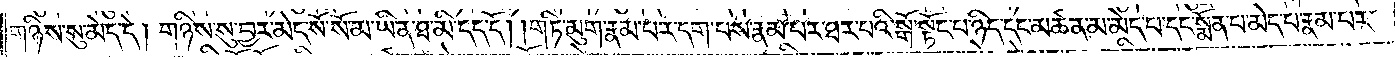གཉིས་སུ་མེད་དེ། གཉིས་སུ་བྱར་མེད་སོ་སོ་མ་ཡིན་ཐ་མི་དད་དོ། །གཏི་མུག་རྣམ་པར་དག་པས་རྣམ་པར་ཐར་པའི་སྒོ་སྟོང་པ་ཉིད་དང་མཚན་མ་མེད་པ་དང་སྨོན་པ་མེད་པ་རྣམ་པར་
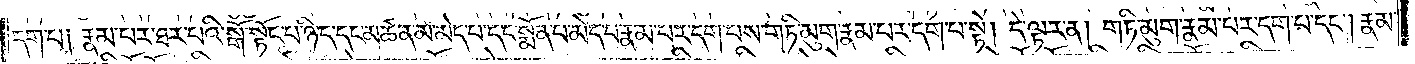དག་པ༑ རྣམ་པར་ཐར་པའི་སྒོ་སྟོང་པ་ཉིད་དང་མཚན་མ་མེད་པ་དང་སྨོན་པ་མེད་པ་རྣམ་པར་དག་པས་གཏི་མུག་རྣམ་པར་དག་པ་སྟེ། དེ་ལྟར་ན། གཏི་མུག་རྣམ་པར་དག་པ་དང༌། རྣམ་
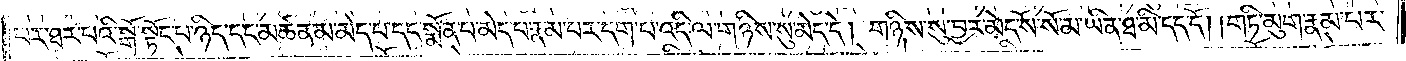པར་ཐར་པའི་སྒོ་སྟོང་པ་ཉིད་དང་མཚན་མ་མེད་པ་དང་སྨོན་པ་མེད་པ་རྣམ་པར་དག་པ་འདི་ལ་གཉིས་སུ་མེད་དེ། གཉིས་སུ་བྱར་མེད་སོ་སོ་མ་ཡིན་ཐ་མི་དད་དོ། །གཏི་མུག་རྣམ་པར་
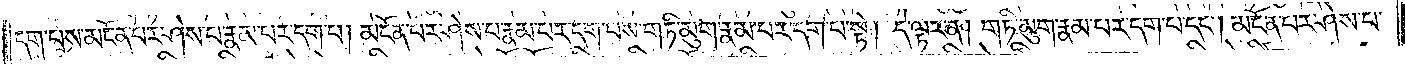དག་པས་མངོན་པར་ཤེས་པ་རྣམ་པར་དག་པ། མངོན་པར་ཤེས་པ་རྣམ་པར་དག་པས་གཏི་མུག་རྣམ་པར་དག་པ་སྟེ། དེ་ལྟར་ན། གཏི་མུག་རྣམ་པར་དག་པ་དང༌། མངོན་པར་ཤེས་པ་
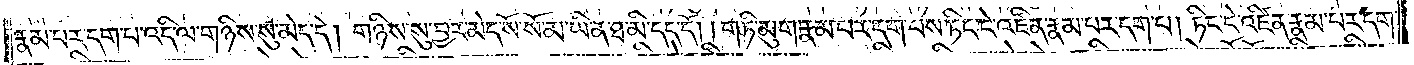རྣམ་པར་དག་པ་འདི་ལ་གཉིས་སུ་མེད་དེ། གཉིས་སུ་བྱར་མེད་སོ་སོ་མ་ཡིན་ཐ་མི་དད་དོ། །གཏི་མུག་རྣམ་པར་དག་པས་ཏིང་ངེ་འཛིན་རྣམ་པར་དག་པ། ཏིང་ངེ་འཛིན་རྣམ་པར་དག་
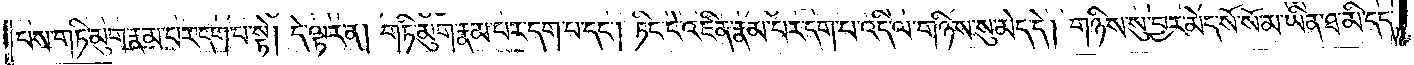པས་གཏི་མུག་རྣམ་པར་དག་པ་སྟེ། དེ་ལྟར་ན། གཏི་མུག་རྣམ་པར་དག་པ་དང༌། ཏིང་ངེ་འཛིན་རྣམ་པར་དག་པ་འདི་ལ་གཉིས་སུ་མེད་དེ། གཉིས་སུ་བྱར་མེད་སོ་སོ་མ་ཡིན་ཐ་མི་དད་
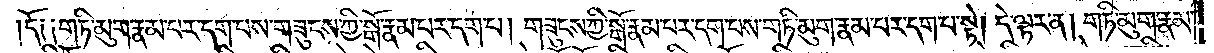དོ༑ ༑གཏི་མུག་རྣམ་པར་དག་པས་གཟུངས་ཀྱི་སྒོ་རྣམ་པར་དག་པ། གཟུངས་ཀྱི་སྒོ་རྣམ་པར་དག་པས་གཏི་མུག་རྣམ་པར་དག་པ་སྟེ། དེ་ལྟར་ན། གཏི་མུག་རྣམ་
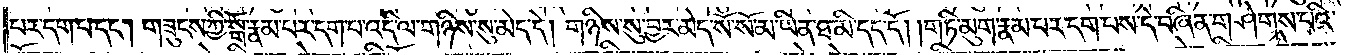པར་དག་པ་དང༌། གཟུངས་ཀྱི་སྒོ་རྣམ་པར་དག་པ་འདི་ལ་གཉིས་སུ་མེད་དེ། གཉིས་སུ་བྱར་མེད་སོ་སོ་མ་ཡིན་ཐ་མི་དད་དོ། །གཏི་མུག་རྣམ་པར་དག་པས་དེ་བཞིན་གཤེགས་པའི་
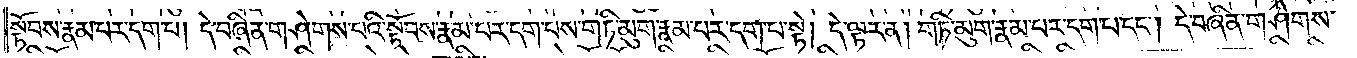སྟོབས་རྣམ་པར་དག་པ། དེ་བཞིན་གཤེགས་པའི་སྟོབས་རྣམ་པར་དག་པས་གཏི་མུག་རྣམ་པར་དག་པ་སྟེ། དེ་ལྟར་ན། གཏི་མུག་རྣམ་པར་དག་པ་དང༌། དེ་བཞིན་གཤེགས་
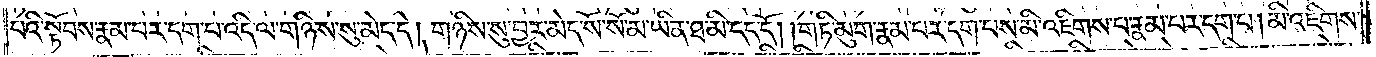པའི་སྟོབས་རྣམ་པར་དག་པ་འདི་ལ་གཉིས་སུ་མེད་དེ། གཉིས་སུ་བྱར་མེད་སོ་སོ་མ་ཡིན་ཐ་མི་དད་དོ། །གཏི་མུག་རྣམ་པར་དག་པས་མི་འཇིགས་པ་རྣམ་པར་དག་པ། མི་འཇིགས་
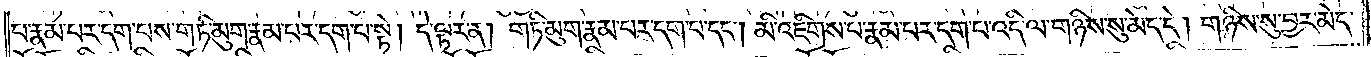པ་རྣམ་པར་དག་པས་གཏི་མུག་རྣམ་པར་དག་པ་སྟེ། དེ་ལྟར་ན། གཏི་མུག་རྣམ་པར་དག་པ་དང༌། མི་འཇིགས་པ་རྣམ་པར་དག་པ་འདི་ལ་གཉིས་སུ་མེད་དེ། གཉིས་སུ་བྱར་མེད་
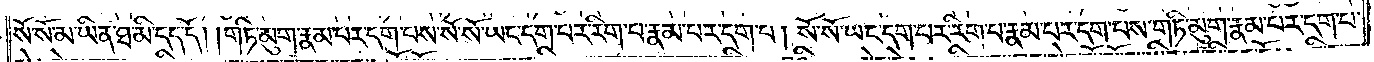སོ་སོ་མ་ཡིན་ཐ་མི་དད་དོ། །གཏི་མུག་རྣམ་པར་དག་པས་སོ་སོ་ཡང་དག་པར་རིག་པ་རྣམ་པར་དག་པ། སོ་སོ་ཡང་དག་པར་རིག་པ་རྣམ་པར་དག་པས་གཏི་མུག་རྣམ་པར་དག་པ་
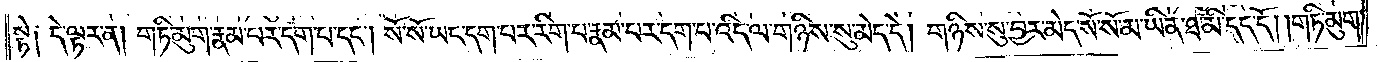སྟེ། དེ་ལྟར་ན། གཏི་མུག་རྣམ་པར་དག་པ་དང༌། སོ་སོ་ཡང་དག་པར་རིག་པ་རྣམ་པར་དག་པ་འདི་ལ་གཉིས་སུ་མེད་དེ། གཉིས་སུ་བྱར་མེད་སོ་སོ་མ་ཡིན་ཐ་མི་དད་དོ། །གཏི་མུག་
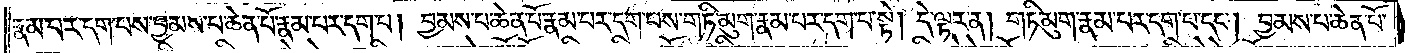རྣམ་པར་དག་པས་བྱམས་པ་ཆེན་པོ་རྣམ་པར་དག་པ། བྱམས་པ་ཆེན་པོ་རྣམ་པར་དག་པས་གཏི་མུག་རྣམ་པར་དག་པ་སྟེ། དེ་ལྟར་ན། གཏི་མུག་རྣམ་པར་དག་པ་དང༌། བྱམས་པ་ཆེན་པོ་
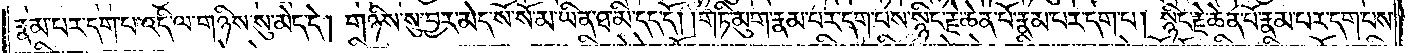རྣམ་པར་དག་པ་འདི་ལ་གཉིས་སུ་མེད་དེ། གཉིས་སུ་བྱར་མེད་སོ་སོ་མ་ཡིན་ཐ་མི་དད་དོ། །གཏི་མུག་རྣམ་པར་དག་པས་སྙིང་རྗེ་ཆེན་པོ་རྣམ་པར་དག་པ། སྙིང་རྗེ་ཆེན་པོ་རྣམ་པར་དག་པས་
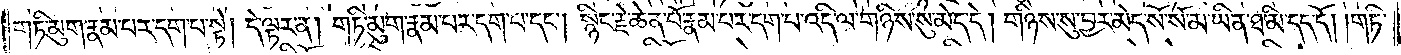གཏི་མུག་རྣམ་པར་དག་པ་སྟེ། དེ་ལྟར་ན། གཏི་མུག་རྣམ་པར་དག་པ་དང༌། སྙིང་རྗེ་ཆེན་པོ་རྣམ་པར་དག་པ་འདི་ལ་གཉིས་སུ་མེད་དེ། གཉིས་སུ་བྱར་མེད་སོ་སོ་མ་ཡིན་ཐ་མི་དད་དོ། །གཏི་
